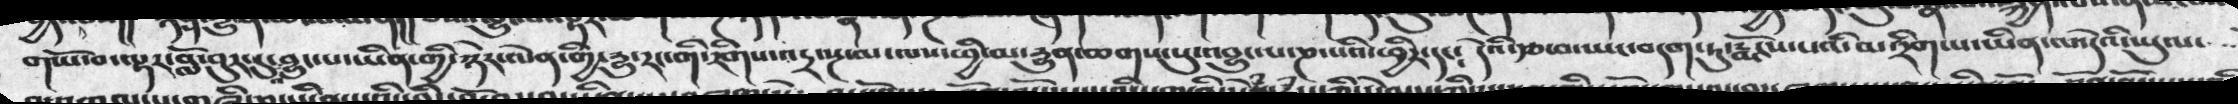གཡོ་བ་ལྟར་བློ་བུར་དུ་འབྱུང་པ་ཡིན་གྱི་ཉེར་ལེན་གྱི་དྱུ་རང་གི་རིགས་འདྲ་སྔ་མ་ལས་ཕྱི་མ་དྱུན་ཆགསསུ་འབྱུང་པ་ཎ་པའི་ཕྱིར་དང༴  དེའི་རྩ་བ་ཡང་བདག་ཏུ་རྨོངས་པའི་མ་རིག་པ་ཡིན་ལ་དེའི་ཡུལ་
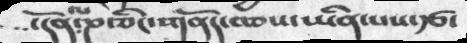་དོན་ལ་ཎ་ཅིང་གནོད་བཅས་ཡིན་པས་རྩ་
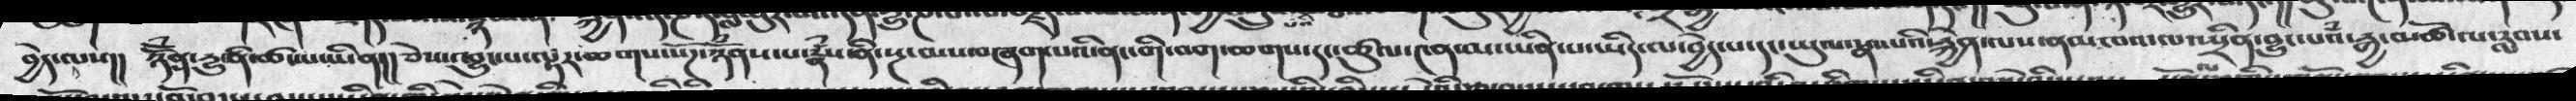བྱེད་ལས།།  ཉོོཾན་དྱུ་ནི་ཚང་པ་ཡིན།།ཅེས་འབྱུང་པ་ལྟར་ཆགས་སོཌ་ཉོཾནས་པ་རྣཾས་ནི་སྔ་མས་བཞག་པའི་ནང་གི་བག་ཆགས་དང་ཚུལ་༤ན་མ་ཡིན་པ་ཡིད་ལ་བྱེད་པ་དང་ཡུལ་སྣང་པའི་རྐྱེན་ལས་ནམཁའ་ལ་སྤྲིན་བྱུང་པའཾ་རྒྱ་མཚོ་ལ་རླབས་
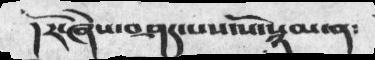།རོ་ཞེས་བཤད་པས་ལོ་སྙམ་ན༴
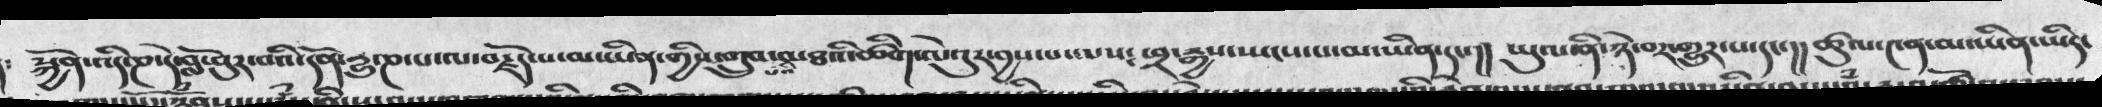༴  སྐྱོན་འདི་ཎ་དེ་བློ་བུར་བའི་དོན་དྱུ་ཎ་པ་ལ་བརྗོད་པ་མ་ཡིན་གྱིས་གྲུབ་པའི་མཐའི་ཚིག་ལེའུ་བྱས་པ་ལས༴  ཕྲ་རྒྱས་སྤངས་པ་མ་ཡིན་དང་།།  ཡུལ་ནི་ཉེ་བར་གྱུར་པ་དང་།།  ཚུལ་༤ན་མ་ཡིན་ཡིད་
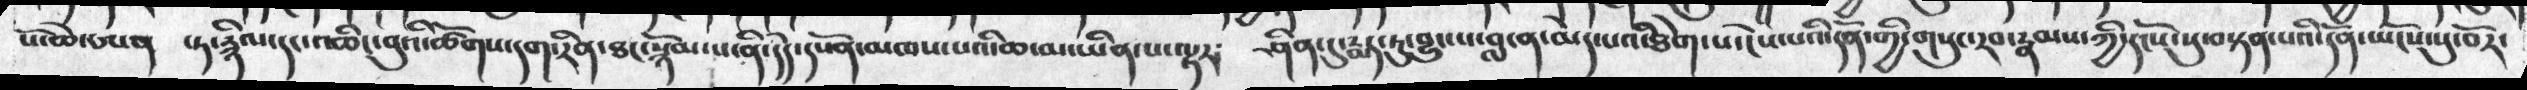པོ་ཆེ་ཨན ་ཏ་རྙིལ་དང་འཆིང་བུའི་ཚོགས་དག་རིན་ཐང་སྙོམ་པ་ནི་དེད་དཔོན་མཁས་པའི་ཆ་མ་ཡིན་པ་ལྟར༴ ཤིན་དུ་རྨད་ཏུ་བྱུང་པ་བླ་ན་མེད་པའི་ཐིག་པ་ངེས་པའི་དོན་གྱི་གསུང་རབ་རྣམས་ཀྱི་དངོས་སུ་བསྟན་པའི་དོན་ཡོངས་སུ་བོར་
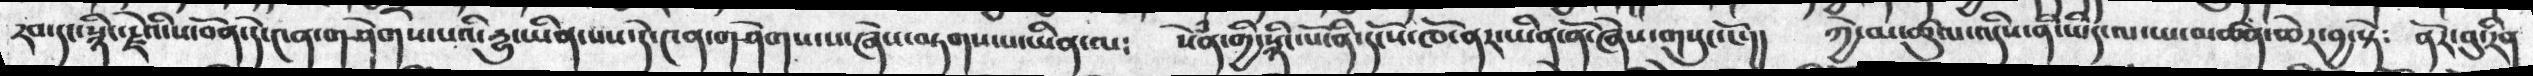རབ་དང་སྙིང་རྗེའི་ས་བོན་དེ་༤ན་གཤེགས་པའི་དྱུ་ཡིན་པས་དེ་༤ན་གཤེགས་པ་ཞེས་བཏགས་པ་ཡིན་ལ༴  སེཾན་གྱི་སྙིང་པོ་ནི་དངོས་ཁོ་ནར་ཞེས་གསུང་ངོ་།།  ཀྱེ་མ་ཚུལ་འདིས་ནི་ཡིད་ལ་ཡ་མཚན་ཆེར་བྱ་སྟེ༴  ནོར་བུ་རིན
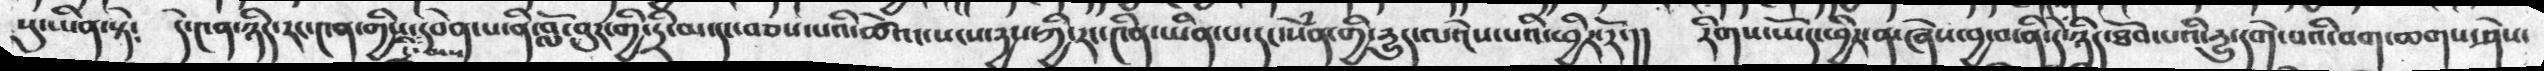སུ་ཡིན༴  དེ་༤ན་ཉིད་རང་༤ན་གྱིས་དྲི་མས་དབེན་པ་ནི་བློ་བུར་གྱི་དྲི་མ་དང་བཅས་པའི་ཚེའང་སངས་དྱས་ཀྱི་རང་༤ིན་ཡིན་པ་དང་སེཾན་གྱི་དྱུད་ལ་ངེས་པའི་ཕྱིར་རོ་།།  རིགས་ཡོད་ཕྱིར་ན་ཞེས་བྱ་བ་ནི་དེ་ཉིད་ཐོབ་པའི་དྱུ་དགེ་བའི་བག་ཆགས་ཤེས་
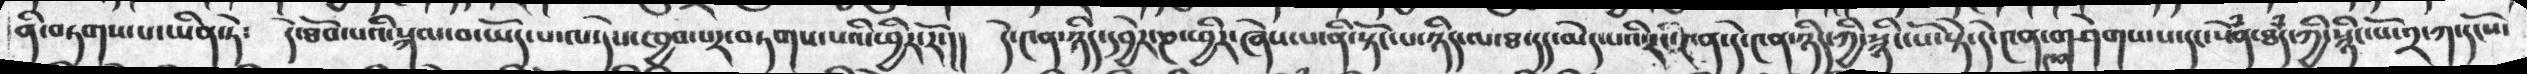ནི་བཏགས་པ་ཡིན་ཏེ༴ དེ་ཐོབ་པའི་སྐལ་བ་ཡོད་པ་ལ་དེས་ཁྱབ་པར་བཏགས་པའི་ཕྱིར་རོ་།། དེ་༤ན་ཉིད་དབྱེར་ཎ་ཕྱིར་ཞེས་པ་ནི་སྟོང་པ་ཉིད་ལ་ཐ་དད་མེད་པའི་རང་༤ན་དེ་༤ན་ཉིད་ཀྱི་སྙིང་པོ་སྟེ་དེ་༤ན་གཤེགས་པ་དང་སེཾན་ཐཾད་ཀྱི་སྙིང་པོ་༢་ཀ་དངོས་
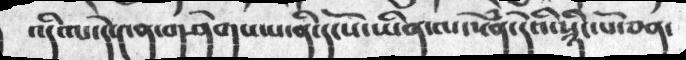འདི་ལ་དེ་༤ན་གཤེགས་པ་ནི་དངོས་ཡིན་ལ་སེཾན་དེའི་སྙིང་པོ་ཅན་
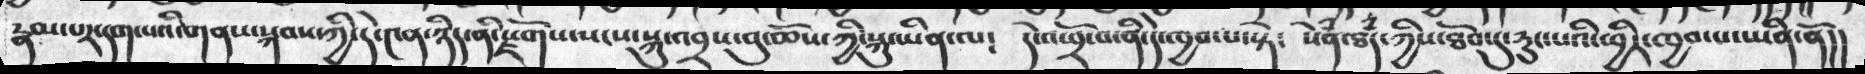རྣམ་པར་དག་པའི་གནས་སྐབས་ཀྱི་དེ་༤ན་ཉིད་ནི་སྫོགས་སངས་སྐུ་འབྲས་བུ་ཆོས་ཀྱི་སྐུ་ཡིན་ལ༴ དེ་འཕྲོ་བ་ནི་དེ་ཁྱབ་པ་སྟེ༴ སེཾན་ཐཾད་ཀྱིས་ཐོབ་དུ་རུང་པའི་ཕྱིར་ཁྱབ་པ་ཡིན་ནོ།།
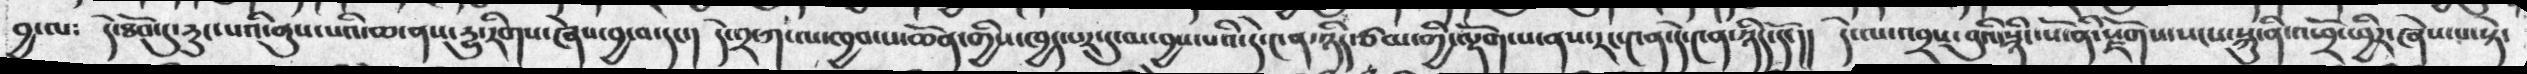བྱ་ལ༴ དེ་ཐོབ་དུ་རུང་པའི་ནུས་པའི་ཆ་ནས་རུ་རིགས་ཞེས་བྱ་བ་དང་། དེ་༢་ཀ་ལ་ཁྱབ་པ་ཆོན་གྱིས་ཁྱད་པར་དུ་མ་བྱས་པའི་དེ་༤ན་ཉིད་ཙམ་གྱི་ལྡོག་པ་ནས་རང་༤ན་དེ་༤ན་ཉིད་དོ་།། དེ་ལ་འབྲས་བུའི་སྙིང་པོ་ནི་སྫོགས་སངས་སྐུ་ནི་འཕྲོ་ཕྱིར་ཞེས་པ་སྟེ་
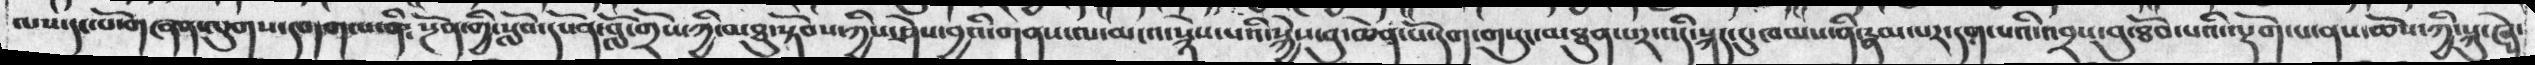ལས་དང་པོ་གཞན་ལུགས་དགག་པ་ནི༴ སྔོན་གྱི་སློབ་དཔན་བློ་གྲོས་ཀྱི་མཐུ་སྟོབས་ཀྱིས་ཤེས་བྱའི་གནས་ལ་མངའ་སྙེས་པའི་སྐྱེས་བུ་ཆེན་པོ་དག་གསུང་མཐུན་པར་འདི་སྐད་དུ་ཁམས་ནི་རྣམ་པར་དག་པའི་འབྲས་བུ་ཐོབ་པའི་ལྡོག་པ་ནས་ཆོས་ཀྱི་སྐུ་ཞེ་
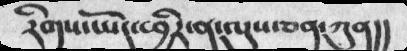རིགས་ཡོད་ཕྱིར་ན་ལུས་ཅན་ཀུན།།
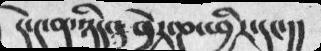དེ་༤ན་ཉིད་དབྱེར་ཎ་ཕྱིར་།།
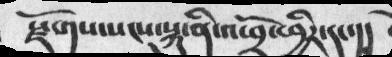སྫོགས་སངས་སྐུ་ནི་འཕྲོ་ཕྱིར་དང་།།
